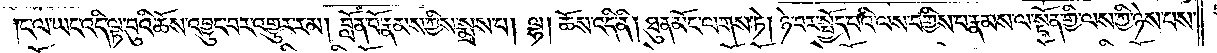ང་ལ་ཡང་འདི་ལྟ་བུའི་ཆོས་འབྱུང་བར་འགྱུར་རམ། བློན་པོ་རྣམས་ཀྱིས་སྨྲས་པ། ལྷ། ཆོས་འདི་ནི། ཐུན་མོང་ལགས་ཏེ། ཉེ་བར་སྤྱོད་པའི་ལས་བགྱིས་པ་རྣམས་ལ་སྔོན་གྱི་ལས་ཀྱི་ཉེས་པས་
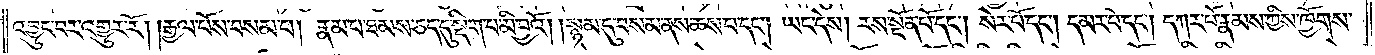འབྱུང་བར་འགྱུར་རོ། །རྒྱལ་པོས་བསམ་པ། རྣམ་པ་ཐམས་ཅད་དུ་སྡིག་པ་མི་བྱའོ། །སྙམ་དུ་བསམ་ནས་ཆས་པ་དང༌། ཡང་དེས། རས་སྔོན་པོ་དང༌། སེར་པོ་དང༌། དམར་པོ་དང༌། དཀར་པོ་རྣམས་ཀྱིས་ཁྱོགས་
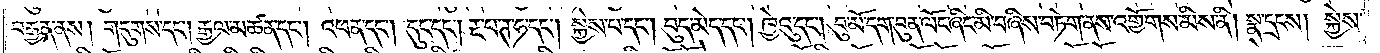བརྒྱན་ནས། གདུགས་དང༌། རྒྱལ་མཚན་དང༌། འཕན་དང༌། དུང་དང༌། རྔ་པ་ཊ་ཧ་དང༌། སྐྱེས་པ་དང༌། བུད་མེད་དང༌། ཁྱེའུ་དང༌། བུ་མོ་དག་བུན་ལོང་ཞིང་མི་བཞིས་བཏེག་ནས་འགྱོགས་མིས་ནི། སྣ་དྲངས། སྐྱེས་
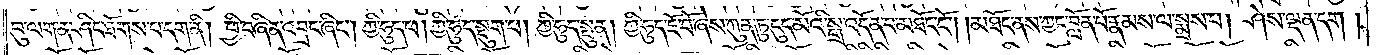བུ་ལག་ན་ཤིང་ཐོགས་པ་དག་ནི། ཕྱི་བཞིན་འབྲང་ཞིང༌། ཀྱི་ཧུད་ཕ། ཀྱི་ཧུད་སྡུག་པ། ཀྱི་ཧུད་སྤུན། ཀྱི་ཧུད་ཇོ་བོ་ཞེས་ཀུན་ཏུ་དུད་མོའི་སྒྲ་འདོན་པ་མཐོང་ངོ༌། །མཐོང་ནས་ཀྱང་བློན་པོ་རྣམས་ལ་སྨྲས་པ། ཤེས་ལྡན་དག །
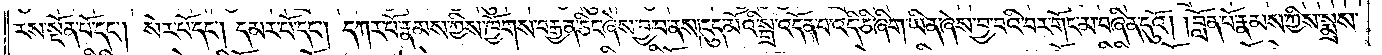རས་སྔོན་པོ་དང༌། སེར་པོ་དང༌། དམར་པོ་དང༌། དཀར་པོ་རྣམས་ཀྱིས་ཁྱོགས་བརྒྱན་ཅིང་ཞེས་བྱ་བ་ནས། དུད་མོའི་སྒྲ་འདོན་པ་འདི་ཅི་ཞིག་ཡིན་ཞེས་བྱ་བའི་བར་གོང་མ་བཞིན་དུའོ། །བློན་པོ་རྣམས་ཀྱིས་སྨྲས་
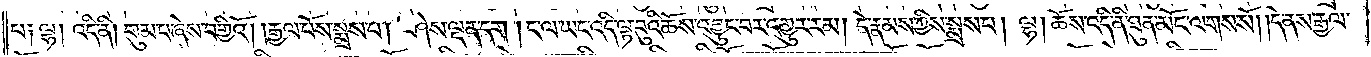པ། ལྷ། འདི་ནི། གུམ་པ་ཞེས་བགྱིའོ། །རྒྱལ་པོས་སྨྲས་པ། ཤེས་ལྡན་དག །ང་ལ་ཡང་འདི་ལྟ་བུའི་ཆོས་འབྱུང་བར་འགྱུར་རམ། དེ་རྣམས་ཀྱིས་སྨྲས་པ། ལྷ། ཆོས་འདི་ནི་ཐུན་མོང་ལགས་སོ། །དེ་ནས་རྒྱལ་
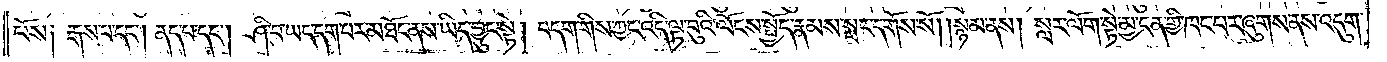པོས། རྒས་པ་དང༌། ནད་པ་དང༌། ཤི་བ་ཡང་དག་པར་མཐོང་ནས་ཡིད་བྱུང་སྟེ། བདག་གིས་ཀྱང་འདི་ལྟ་བུའི་ལོངས་སྤྱོད་རྣམས་སྤང་དགོས་སོ། །སྙམ་ནས། སླར་ལོག་སྟེ་མྱ་ངན་གྱི་ཁང་པར་ཞུགས་ནས་འདུག་
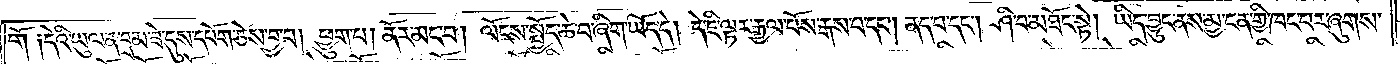གོ །དེའི་ཡུལ་ན་བྲམ་ཟེ་དུས་དཔོག་ཅེས་བྱ་བ། ཕྱུག་པ། ནོར་མང་བ། ལོངས་སྤྱོད་ཆེ་བ་ཞིག་ཡོད་དེ། དེ་ཇི་ལྟར་རྒྱལ་པོས་རྒས་པ་དང༌། ནད་པ་དང༌། ཤི་བ་མཐོང་སྟེ། ཡིད་བྱུང་ནས་མྱ་ངན་གྱི་ཁང་པར་ཞུགས་
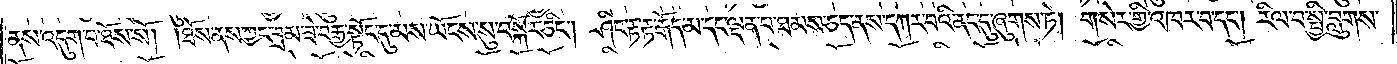ནས་འདུག་པ་ཐོས་སོ། །ཐོས་ནས་ཀྱང་བྲམ་ཟེ་བརྒྱ་སྟོང་དུ་མས་ཡོངས་སུ་བསྐོར་ཅིང༌། ཤིང་རྟ་རྟ་རྒོད་མ་དང་ལྡན་པ་ཐམས་ཅད་ནས་དཀར་བའི་ནང་དུ་ཞུགས་ཏེ། གསེར་གྱི་འཁར་བ་དང༌། རིལ་བ་སྤྱི་བླུགས་
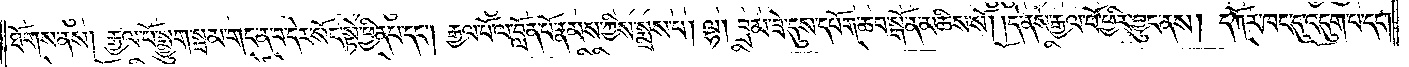ཐོགས་ནས། རྒྱལ་པོ་སྨྱུག་སྦམ་གང་ན་བ་དེར་སོང་སྟེ་ཕྱིན་པ་དང༌། རྒྱལ་པོ་ལ་བློན་པོ་རྣམས་ཀྱིས་སྨྲས་པ། ལྷ། བྲམ་ཟེ་དུས་དཔོག་ཆབ་སྒོ་ན་མཆིས་སོ། །དེ་ནས་རྒྱལ་པོ་ཕྱིར་བྱུང་ནས། དཀོར་ཁང་དུ་འདུག་པ་དང༌།
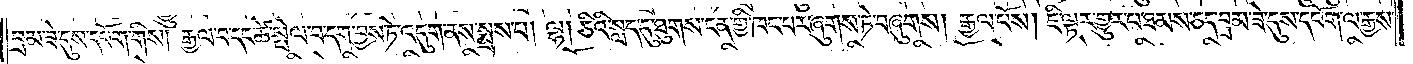བྲམ་ཟེ་དུས་དཔོག་གིས། རྒྱལ་བ་དང་ཚེ་སྤེལ་བ་དག་བྱས་ཏེ་འདུག་ནས་སྨྲས་པ། ལྷ། ཅིའི་སླད་དུ་ཐུགས་ངན་གྱི་ཁང་པར་ཞུགས་ཏེ་བཞུགས། རྒྱལ་པོས། ཇི་ལྟར་གྱུར་པ་ཐམས་ཅད་བྲམ་ཟེ་དུས་དཔོག་ལ་རྒྱས་
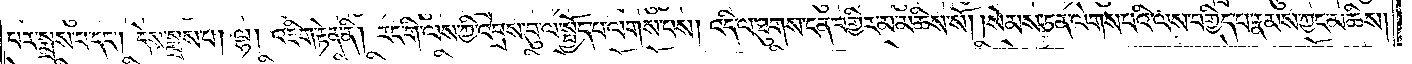པར་སྨྲས་པ་དང༌། དེས་སྨྲས་པ། ལྷ། འཇིག་རྟེན་ནི། རང་གི་ལས་ཀྱི་འབྲས་བུ་ལ་སྤྱོད་པ་ལགས་པས། འདི་ལ་ཐུགས་ངན་བགྱིར་མ་མཆིས་སོ། །སེམས་ཅན་ལེགས་པའི་ལས་བགྱིད་པ་རྣམས་ཀྱང་མཆིས་
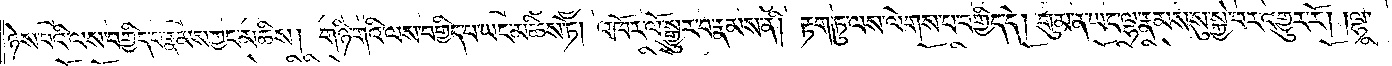ཉེས་པའི་ལས་བགྱིད་པ་རྣམས་ཀྱང་མཆིས། གཉི་གའི་ལས་བགྱིད་པ་ཡང་མཆིས་ཏེ། འཁོར་ལོ་སྒྱུར་བ་རྣམས་ནི། རྟག་ཏུ་ལས་ལེགས་པ་བགྱིད་དེ། གུམ་ན་ཡང་ལྷ་རྣམས་སུ་སྐྱེ་བར་འགྱུར་རོ། །ལྷ་
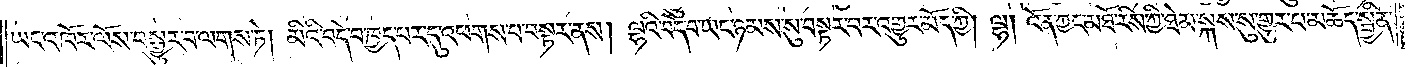ཡང་འཁོར་ལོས་བསྒྱུར་བ་ལགས་ཏེ། མིའི་བདེ་བ་ཁྱད་པར་དུ་འཕགས་པ་བསྟར་ནས། ལྷའི་བདེ་བ་ཡང་ཉམས་སུ་བསྟར་བར་འགྱུར་མོད་ཀྱི། ལྷ། འོན་ཀྱང་མཐོ་རིས་ཀྱི་ཐེམ་སྐས་སུ་གྱུར་པ་མཆོད་སྦྱིན་
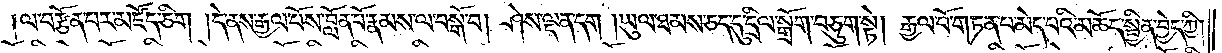ལ་བརྩོན་པར་མཛོད་ཅིག །དེ་ནས་རྒྱལ་པོས་བློན་པོ་རྣམས་ལ་བསྒོ་བ། ཤེས་ལྡན་དག །ཡུལ་ཐམས་ཅད་དུ་དྲིལ་སྒྲོག་བཅུག་སྟེ། རྒྱལ་པོ་གཏན་པ་མེད་པའི་མཆོད་སྦྱིན་བྱེད་ཀྱི།
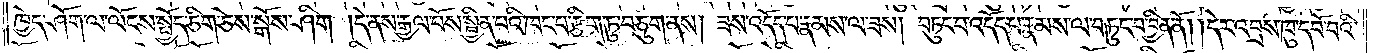ཁྱེད་ཤོག་ལ་ལོངས་སྤྱོད་ཅིག་ཅེས་སྒོས་ཤིག །དེ་ནས་རྒྱལ་པོས་སྦྱིན་པའི་ཁང་པ་རྩིག་ཏུ་བཅུག་ནས། ཟས་འདོད་པ་རྣམས་ལ་ཟས། བཏུང་བ་འདོད་པ་རྣམས་ལ་བཏུང་བ་བྱིན་ནོ། །དེར་འབྲས་ཁུ་དབོ་བའི་
